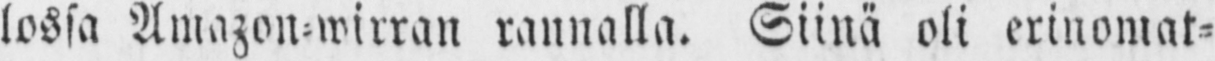lossa Amazon-wirran rannalla. Siinä oli erinomat-
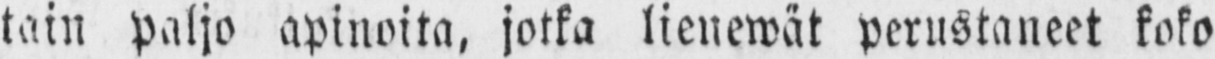tain paljo apinoita, jotka lienewät perustaneet koko
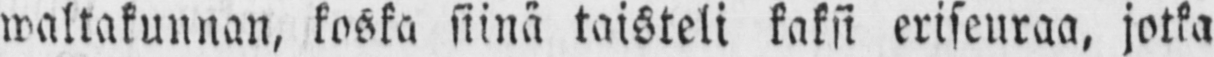waltakunnan, koska siinä taisteli kaksi eriseuraa, jotka
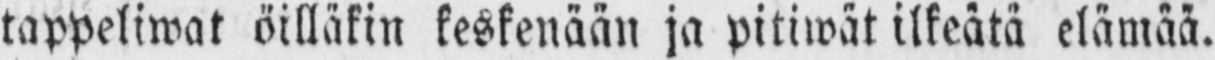tappeliwat öilläkin keskenään ja pitiwät ilkeätä elämää.
